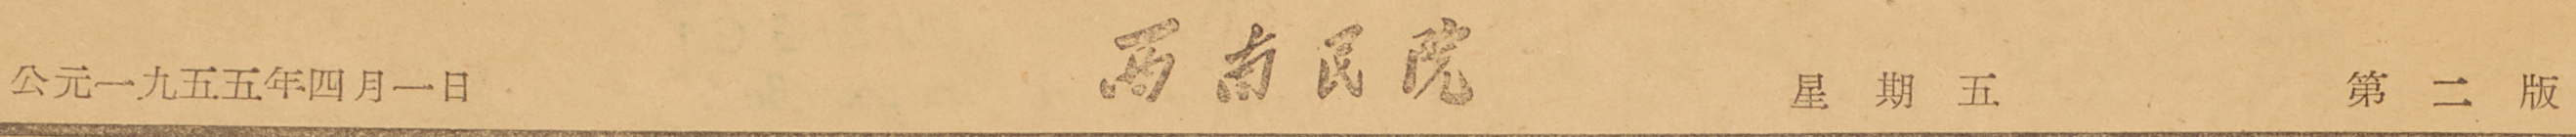公元一九五五年四月一日 西南民院 星期五 第二版
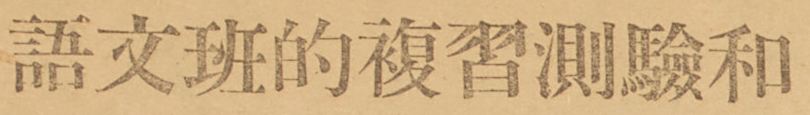語文班的複習測驗和
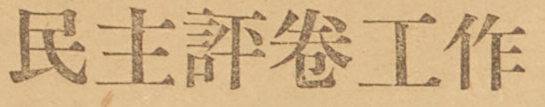民主評卷工作
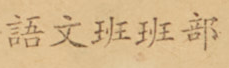語文班班部
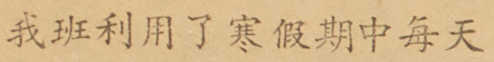我班利用了寒假期中每天
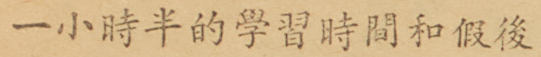一小時半的學習時間和假後
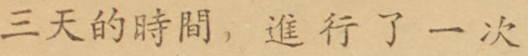三天的時間，進行了一次
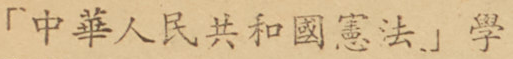「中華人民共和國憲法」學
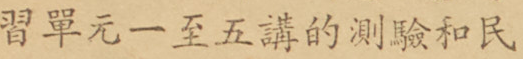習單元一至五講的測驗和民
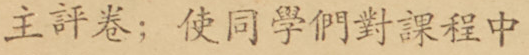主評卷；使同學們對課程中
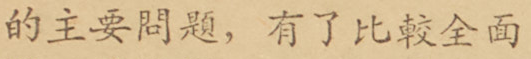的主要問題，有了比較全面
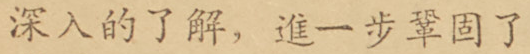深入的了解，進一步鞏固了
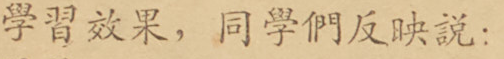學習效果，同學們反映說：
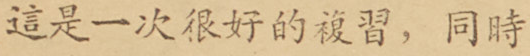這是一次很好的複習，同時
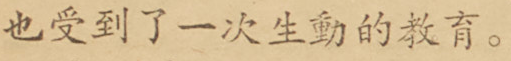也受到了一次生動的教育。
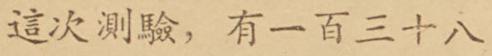這次測驗，有一百三十八
